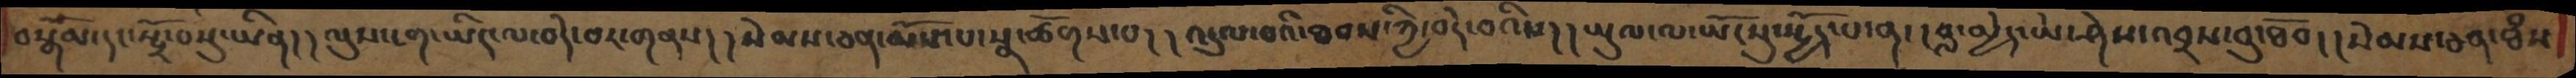བསྒོམ་དང་སྤྲོ་བསུ་ཡིན། །ལུས་ངག་ཡིད་ལ་བདེ་བར་གནས། །སེམས་ཅན་མོས་པ་སྣ་ཚོགས་པ། །འདུལ་བའི་ཐབས་ཀྱི་བདེ་བའིས། །ཡུལ་ལ་ཡོངསུ་སྤྱོད་པ་ན། །བླ་མེད་ཡེ་ཤེས་འབྲས་བུ་ཐོབ། །སེམས་ཅན་ཐཾས
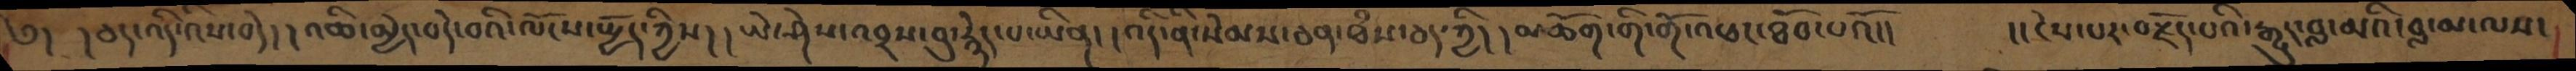༄།  །ཅད་འདི་འིས་བདེ། །འཆི་མྱེད་བེད་བའི་ལོངས་སྤྱོད་ཀྱིས། །ཡེ་ཤེས་འབྲས་བུ་རྙེད་པ་ཡིན། །འདི་ནི་སེམས་ཅན་ཐཾས་ཅད་ཀྱི། །མཆོག་གི་གོ་འཕང་ཐོབ་པའོ།།    །།ངེས་པར་བརྗོད་པའི་རྒྱུད་བླ་མའི་བླ་མ་ལས།
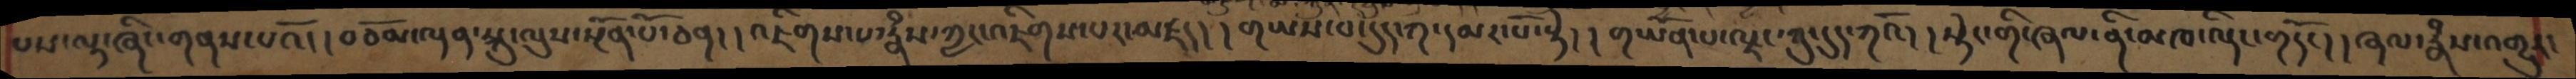པས་ལྟ་ཞིང་གནས་པའོ། །བཅོམ་ལྡན་སྐུ་ལུས་སྔོན་པོ་ཅན། །འཇིགས་པ་རྣཾས་ཀྱང་འཇིགས་པར་མཛད། །གཡས་པ་དུད་ཀ་དམར་པོ་སྟེ། །གཡོན་པ་ལྗང་ཁུ་དུད་ཀའོ། །སྟེང་གི་ཞལ་ནི་མཁ་ལྡིང་གདོང། །ཞལ་རྣཾས་འགྱུར།
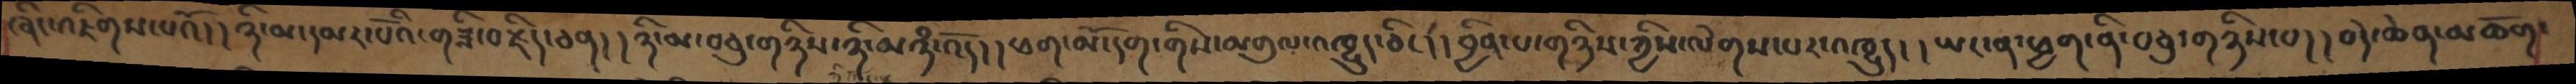ཞིང་འཇིགས་པའོ། །ཉི་མ་དམར་པོའི་གཟི་བརྗིད་ཅན། །ཉི་མ་བཅུ་གཉིས་ཉི་མཉཾ་འདོད། །ཕག་མོ་དག་གིས་མགུལ་འཁྱུད་ཅིང། །བྱིན་པ་གཉིས་ཀྱིས་ལེགས་པར་འཁྱུད། །ཡང་ན་ཕྱག་ནི་བཅུ་གཉིས་པ། །བདེ་ཆེན་མཆོག་
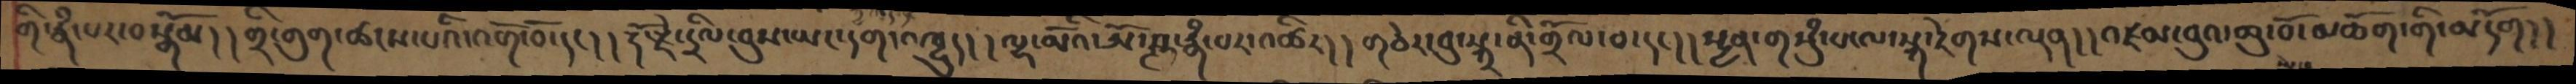གི་རྣཾ་པར་བསྒོམ། །གྲི་གུག་ཚངས་པའི་འགོ་བོ་དང། །རྡོ་རྗེ་དྲིལ་བུས་ཡང་དག་འཁྱུད། །ལྷ་མོའི་ཨོ་ཤྚ་རྣཾ་པར་འཚིར། །གཅེར་བུ་སྐྲ་ནི་གྲོལ་བ་དང། །སྤྱན་གསུཾ་པ་ལ་སྐ་རེགས་ལྡན། །འཛམ་བུའ་ཆུ་བོ་མཆོག་གི་མདོག། །
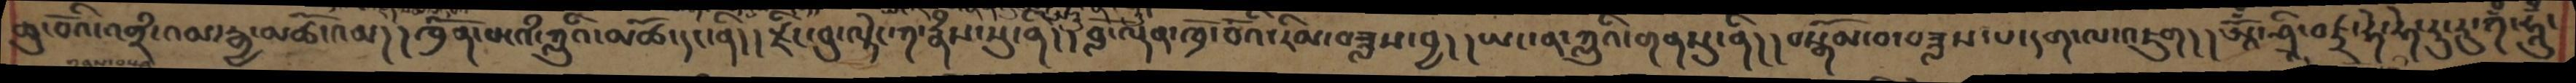ཆུ་བོའི་འགྲཾ་འམ་རྒྱ་མཚོ་འམ། །ཁྲོན་པ་འཾ་ཀླུའི་མཚོ་དང་ནི། །རྫིང་བུ་ལྟེང་ཀ་རྣཾས་སུ་ནི། །བློ་ལྡན་ཁྲོ་བོའི་རིམ་བཟླས་བྱ། །ཡང་ན་ཀླུའི་གནསུ་ནི། །བསྒོམ་བ་བཟླས་པ་དག་ལ་འཇུག། །ཨཱོྃ་ཤྲཱི་བཛྲ་ཧེ་ཧེ་རུ་རུ་ཀྃ་ཧཱུྃ་
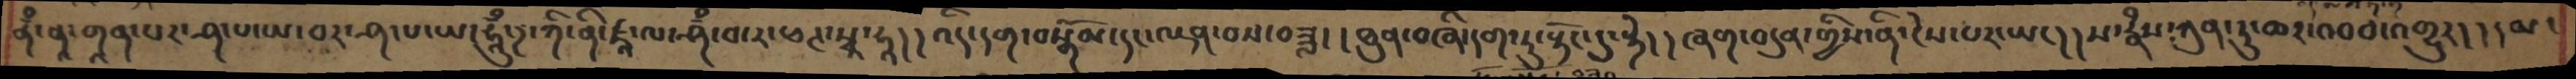ནྃ་ནཱ་གཱན་པར་ཤ་པ་ཡ་བར་ཤ་པ་ཡ།ཧཱུྃ་ཌ་ཀི་ནི་ཛཱ་ལ་ཤྃ་བ་ར་ཕཊ་སྭཱ་ཧཱ། །འདི་དག་བསྒོམ་དང་ལྡན་བས་བཟླ། །ཐུན་བཞི་དག་ཏུ་སྟོང་དུ་སྟེ། །ཞག་བདུན་གྱིས་ནི་ངེས་པར་ཡང། །ས་རྣཾས་ཀུན་ཏུ་ཆར་འབབ་འགྱུརད། །དམ་
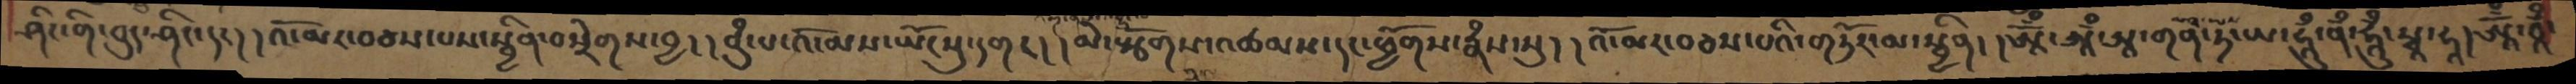ཤིང་གི་བུད་ཤིང་དང། །འོ་མར་བཅས་པས་སྦྱིན་བསྲེགས་བྱ༎ །བུཾ་པ་འོ་མས་ཡོངསུ་དགང། །མེ་སྩོགས་འཚམས་དང་ཕྱོགས་རྣཾས་སུ། །འོ་མར་བཅས་པའི་གཏོར་མ་སྦྱིན། །ཨཱོྃ་ཨཱྃ་ཨཱ་གན་ཏོ་ཡ་ཧཱུྃ་ནྃ་ཧཱུྃ་སྭཱ་ཧཱ། ཨཱོྃ་བཱྃ་
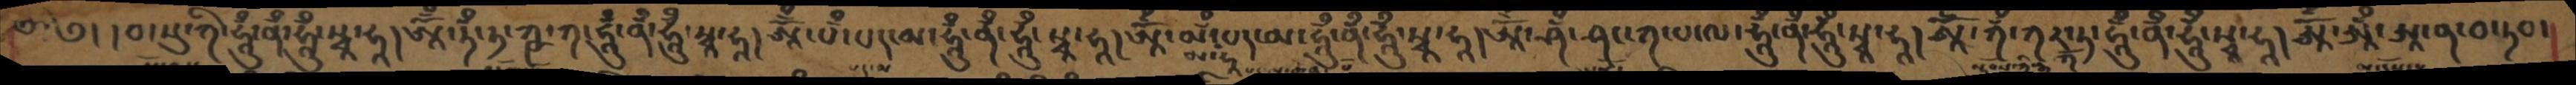༄༅། །བ་སུ་ཀི་ཧཱུྃ་ནྃ་ཧཱུྃ་སྭཱ་ཧཱ། ཨཱོྃ་ཏྃ་ཏ་ཀྵ་ཀ།ཧཱུྃ་ནྃ་ཧཱུྃ་སྭཱ་ཧཱ། ཨཱོྃ་པྃ་པད་མ་ཧཱུྃ་ནྃ་ཧཱུྃ་སྭཱ་ཧཱ། ཨཱོྃ་མྃ་པད་མ་ཧཱུྃ་ནྃ་ཧཱུྃ་སྭཱ་ཧཱ། ཨཱོྃ་ཤྃ་ཤང་ཀ་པ་ལ་ཧཱུྃ་ནྃ་ཧཱུྃ་སྭཱ་ཧཱ། ཨཱོྃ་ཀྃ་ཀར་ཀ་ཏ་ཧཱུྃ་ནྃ་ཧཱུྃ་སྭཱ་ཧཱ། ཨཱོྃ་ཨཱྃ་ཨཱ་ན་བ་ཏབ་
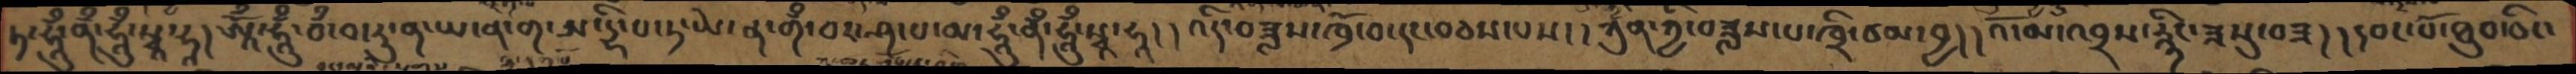ཏ་ཧཱུྃ་ནྃ་ཧཱུྃ་སྭཱ་ཧཱ། ཨཱོྃ་ཧཱུྃ་བྃ་བ་རུ་ན་ཡ་ན་ག་ཨ་དྷི་པ་ཏ་ཡེ་ན་གྃ་བར་ཤ་པ་མ་ཧཱུྃ་ནྃ་ཧཱུྃ་སྭཱ་ཧཱ། འདི་བཟླས་ཁྲོ་བ་དང་བཅས་པས། །ཀུན་ཀྱི་བཟླས་པ་ཁྲི་ཙམ་བྱ། །འོ་མ་འབྲས་རྙིང་ཟསུ་བཟ། །དབང་པོ་ཐུབ་ཅིང་
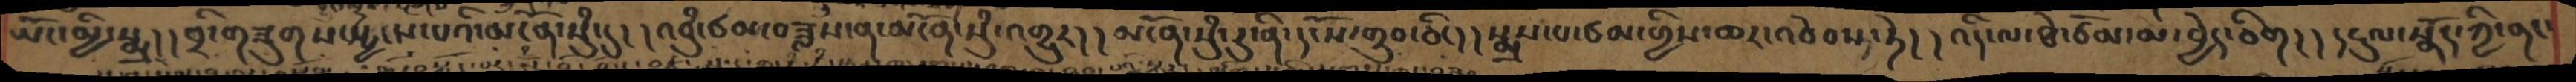ཡོང་མྱི་སྨྲ། །བྲི་གཟུགས་སྦྱངས་པའི་མངོན་སུཾ་དུ། །འབུཾ་ཙམ་བཟླས་ན་མངོན་སུཾ་འགྱུར། །མངོན་སུཾ་ཏུ་ནི་དངོས་གྲུབ་ཅིང། །སྨྲས་པ་ཙམ་གྱིས་ཆར་འབེབས་ཏེ། །འདི་ལ་ཐེ་ཙོམ་མ་བྱེད་ཅིག། །དངུལ་སྣོད་ཀྱི་ནང་
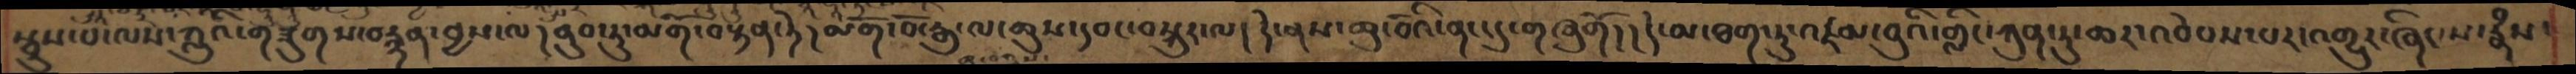སྦུས་པ་ལས་ཀླུའི་གཟུགས་བརྙན་བྱས་ལ། ནུབ་ཏུ་མགོ་བསྟན་ཏེ། མགོ་བོ་རྒུ་ལ་ཆུས་དབང་བསྐུར་ལ། དེ་ནས་ཆུ་བོའི་ནང་དུ་གཞུགོ། དེ་མ་ཐག་ཏུ་འཛམ་བུའི་གླིང་ཀུན་ཏུ་ཆར་འབེབས་པར་འགྱུར་ཞིང་ས་རྣཾས་
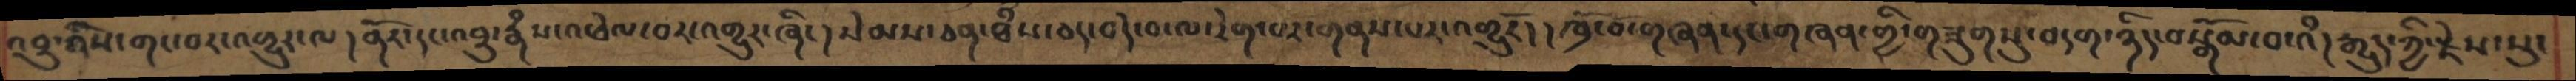འབྲུ་འིས་གང་བར་འགྱུར་ལ། ནོར་དང་འབྲུ་རྣཾས་འཕེལ་བར་འགྱུར་ཞིང། སེམས་ཅན་ཐཾས་ཅད་བདེ་བ་ལ་རེག་པར་གནས་པར་འགྱུརོ། །ཁྲོ་བོ་གཞན་དང་གཞན་གྱི་གཟུགསུ་བདག་ཉིད་བསྒོམ་བ་འཾ ། རྒྱུད་ཀྱི་རྗེས་སུ་
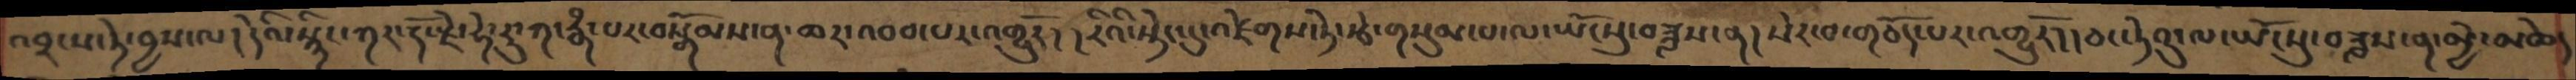འབྲངས་ཏེ་བྱས་ལ།དེའི་སྙིང་ཀར་རྡོ་རྗེ་ཧེ་རུ་ཀ་རྣཾ་པར་བསྒོམས་ན་ཆར་འབབ་པར་འགྱུརོ། །རིའི་སྡེང་དུ་འཛེགས་ཏེ་རྩེ་གསུམ་པ་ལ་ཡོངསུ་བཟླས་ན།སེར་བ་གཅོད་པར་འགྱུརོ།།ཅང་ཏེའུ་ལ་ཡོངསུ་བཟླས་ན་མྱེ་མཆེད
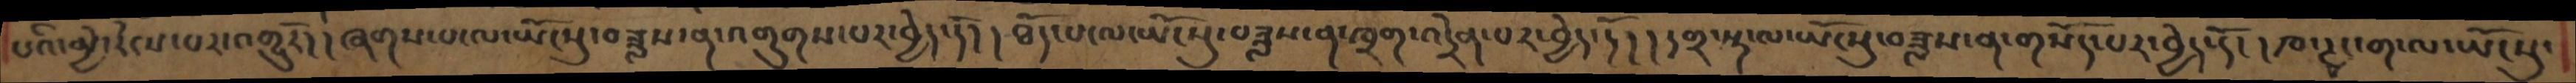པའི་མྱེ་རེངས་པར་འགྱུརོ། །ཞགས་པ་ལ་ཡོངསུ་བཟླས་ན་འགུགས་པར་བྱེད་དོ། །ཐོད་པ་ལ་ཡོངསུ་བཟླས་ན་ཁྲག་འདྲེན་པར་བྱེད་དོ། །དགྲ་སྟ་ལ་ཡོངསུ་བཟླས་ན་གསོད་པར་བྱེད་དོ། །ཁ་ཊྭང་ག་ལ་ཡོངསུ་
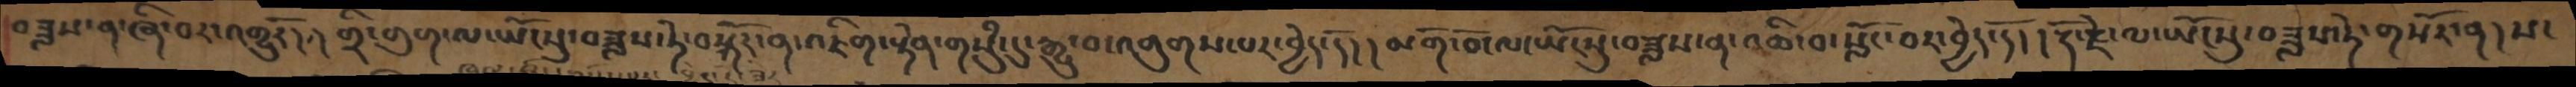བཟླས་ན་ཞི་བར་འགྱུརོ། །གྲི་གུག་ལ་ཡོངསུ་བཟླས་ཏེ་བསྐོར་ན་འཇིག་རྟེན་གསུཾ་དུ་རྒྱུ་བ་འགུགས་པར་བྱེད་དོ། །མགོ་བོ་ལ་ཡོངསུ་བཟླས་ན་འཆི་བ་སློང་བར་བྱེད་དོ། །རྡོ་རྗེ་ལ་ཡོངསུ་བཟླས་ཏེ་གསོར་ན།ས་
